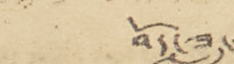བོད་ཟླ་
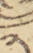༢
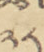༢༨
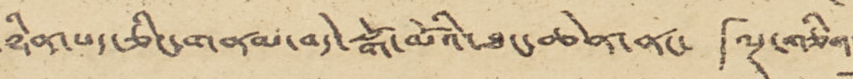ཉིན་པད་ཅིང་གནམ་བདེ་སྒོ་མོའི་ཐང་ཆེན་ནང་ 「ལྔ་གཅིག་」
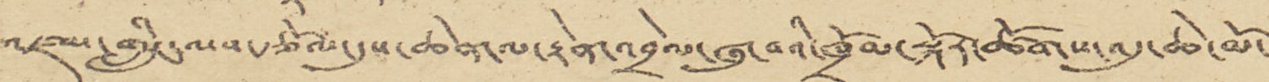འཛམ་གླིང་ལས་རྩོལ་དུས་ཆེན་ལ་རྟེན་འབྲེལ་ཞུ་བའི་ཁྲོམ་སྐོར་ཚོགས་འདུ་ཆེ་མོ་
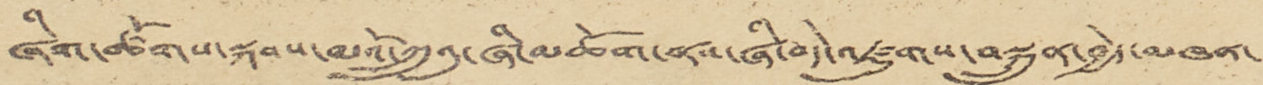ཞིག་ཚོགས་སྐབས་མའོ་ཀྲུའུ་ཞི་མཆོག་ནས་ཞི་བདེ་འཛུགས་བསྐྲུན་བྱེད་མཁན་
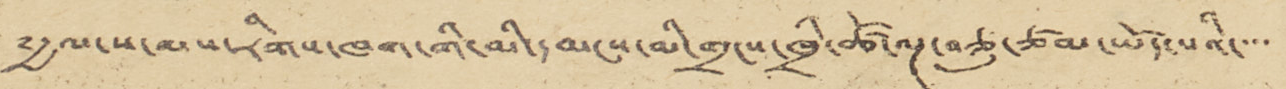༸རྒྱལ་ས་ལས་རིགས་ཁག་གི་མི་དམངས་མི་གྲངས་ཁྲི་ཚོ་ལྔ་བཅུ་ཙམ་ཡོད་པའི་་་་
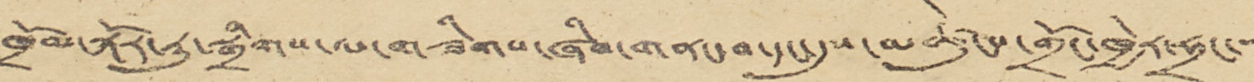ཁྲོམ་སྐོར་རུ་སྒྲིགས་ལ་གཟིགས་ཞིབ་གནང་བ་དང་དུས་མཚུངས་གྲོང་ཁྱེར་ཧྲང་་་་
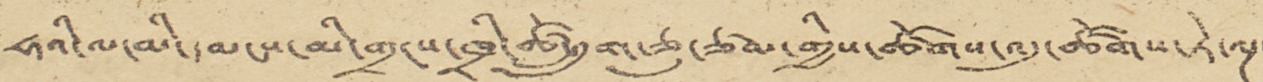ཧའི་ལ་མི་དམངས་མི་གྲངས་ཁྲི་ཚོ་དྲུག་ཅུ་ཙམ་གྱིས་ཚོགས་འདུ་ཚོགས་ཏེ་ལྔ་
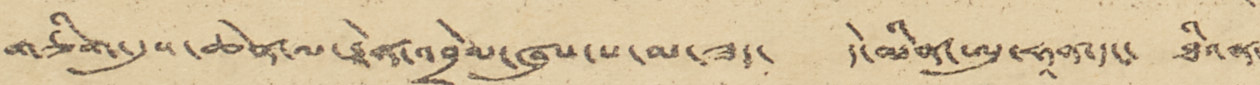གཅིག་དུས་ཆེན་ལ་རྟེན་འབྲེལ་ཞུས་པ་མ་ཟད་ དེ་མིན་ཨུ་ཧཱན་དང་ ཐིའན་
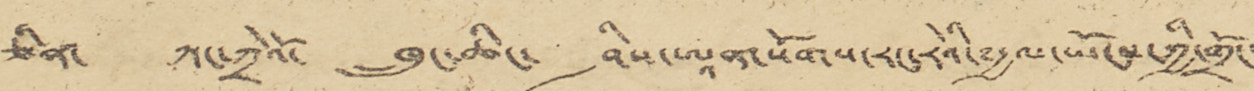ཅིན་ ཀང་ཀྲེའོ་ ཁྲུང་ཆིང་ ཤིས་ཨཱན་སོགས་རང་རེའི་༸རྒྱལ་ཡོངས་ཀྱི་གྲོང་
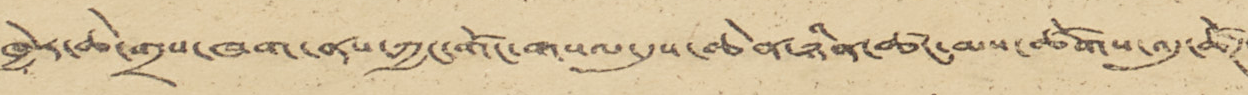ཁྱེར་ཆེ་གྲས་ཁག་ནས་ཀྱང་གོང་གསལ་དུས་ཆེན་ཉིན་ཚང་མས་ཚོགས་འདུ་ཚོཊ་
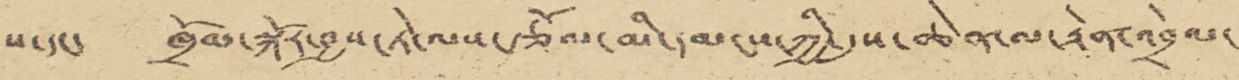པ་དང་ ཁྲོམ་སྐོར་བྱས་ཏེ་ལས་རྩོལ་མི་དམངས་ཀྱི་དུས་ཆེན་ལ་རྟེན་འབྲེལ་
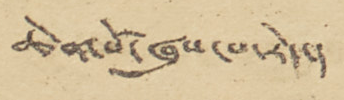ཆེན་པོ་ཞུས་པ་རེད་།
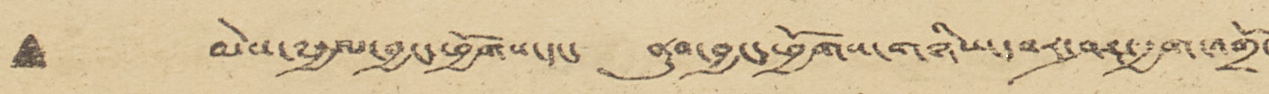• མེས་༸རྒྱལ་བྱང་ཕྱོགས་དང་ ནུབ་བྱང་ཕྱོགས་གཉིས་བར་ཤར་རྒྱག་འགྲོ་
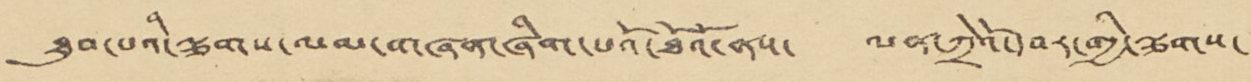ཐུབ་པའི་ལྕགས་ལམ་གཞན་ཞིག་པའོ་ཐོའོ་ནས་ ལན་ཀྲེའོ་དབར་གྱི་ལྕགས་
